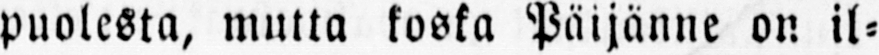puolesta, mutta koska Päijänne on il-
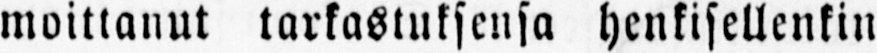moittanut tarkastuksensa henkisellenkin
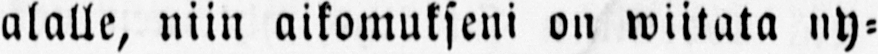alalle, niin aikomukseni on wiitata ny-
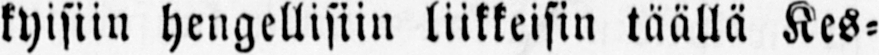kyisiin hengellisiin liikkeisin täällä Kes-
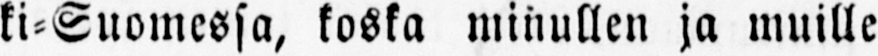ki-Suomessa, koska minullen ja muille
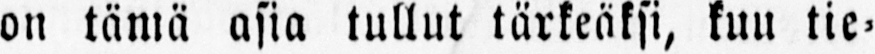on tämä asia tullut tärkeäksi, kuu tie-
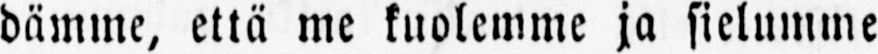dämme, että me kuolemme ja sielumme
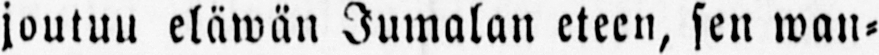joutuu eläwän Jumalan eteen, sen wan-
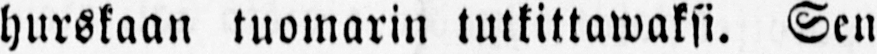hurskaan tuomarin tutkittawaksi. Sen
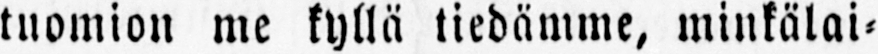tuomion me kyllä tiedämme, minkälai-
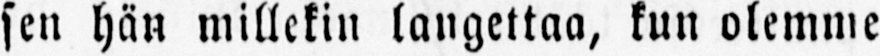sen hän millekin langettaa, kun olemme
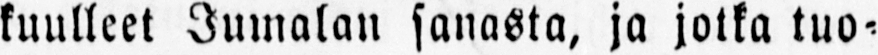kuulleet Jumalan sanasta, ja jotka tuo-
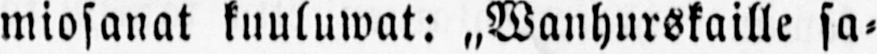miosanat kuuluwat: „Wanhurskaille sa-
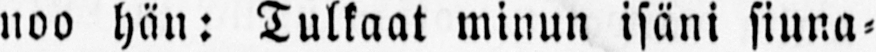noo hän: Tulkaat minun isäni siuna-
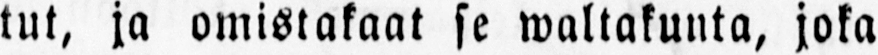tut, ja omistakaat se waltakunta, joka
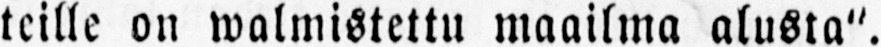teille on walmistettu maailma alusta".
